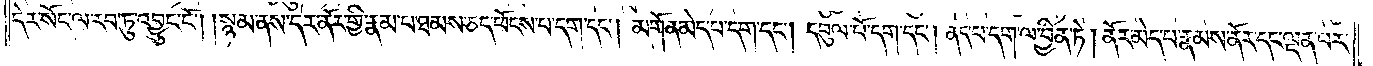དེར་སོང་ལ་རབ་ཏུ་འབྱུང་ངོ༌། །སྙམ་ནས་དེར་ནོར་གྱི་རྣམ་པ་ཐམས་ཅད་ཕོངས་པ་དག་དང༌། མགོན་མེད་པ་དག་དང༌། དབུལ་པོ་དག་དང༌། ནད་པ་དག་ལ་བྱིན་ཏེ། ནོར་མེད་པ་རྣམས་ནོར་དང་ལྡན་པར་
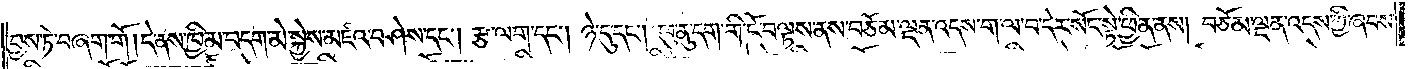བྱས་ཏེ་བཞག་གོ །དེ་ནས་ཁྱིམ་བདག་མེ་སྐྱེས་མཛའ་བཤེས་དང༌། རྩ་ལག་དང༌། ཉེ་དུ་དང༌། ཕུ་ནུ་དག་གི་ངོ་བལྟས་ནས་བཅོམ་ལྡན་འདས་ག་ལ་བ་དེར་སོང་སྟེ་ཕྱིན་ནས། བཅོམ་ལྡན་འདས་ཀྱི་ཞབས་
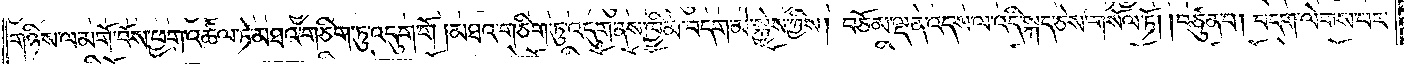གཉིས་ལ་མགོ་བོས་ཕྱག་འཚལ་ཏེ་མཐའ་གཅིག་ཏུ་འདུག་གོ །མཐའ་གཅིག་ཏུ་འདུག་ནས་ཁྱིམ་བདག་མེ་སྐྱེས་ཀྱིས། བཅོམ་ལྡན་འདས་ལ་འདི་སྐད་ཅེས་གསོལ་ཏོ། །བཙུན་པ། བདག་ལེགས་པར་
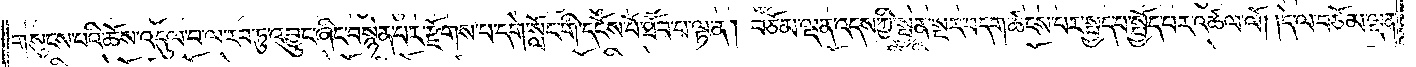གསུངས་པའི་ཆོས་འདུལ་བ་ལ་རབ་ཏུ་འབྱུང་ཞིང་བསྙེན་པར་རྫོགས་པ་དགེ་སློང་གི་དངོས་པོ་ཐོབ་པ་ལྟ་ན། བཅོམ་ལྡན་འདས་ཀྱི་སྤྱན་སྔར་བདག་ཚངས་པར་སྤྱད་པ་སྤྱོད་པར་འཚལ་ལོ། །དེ་ལ་བཅོམ་ལྡན་
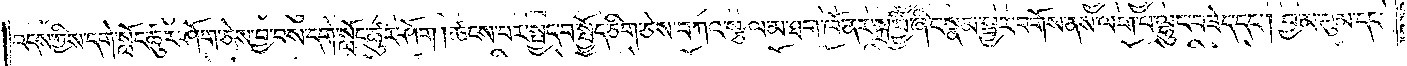འདས་ཀྱིས་དགེ་སློང་ཚུར་ཤོག་ཅེས་བྱ་བས་དགེ་སློང་ཚུར་ཤོག །ཚངས་པར་སྤྱད་པ་སྤྱོད་ཅིག་ཅེས་བཀའ་སྩལ་མ་ཐག་ཁོ་ནར་སྐྲ་བྱི་ཞིང་སྣམ་སྦྱར་བགོས་ནས་ལག་པ་ལྷུང་བཟེད་དང༌། བྱ་མ་བུམ་དང་
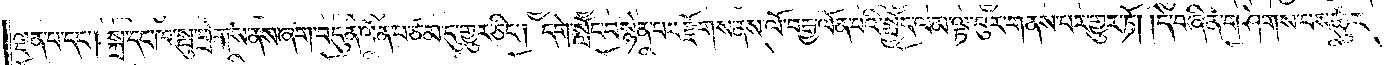ལྡན་པ་དང༌། སྐྲ་དང་ཁ་སྤུ་བྲེགས་ནས་ཞག་བདུན་ལོན་པ་ཙམ་དུ་གྱུར་ཅིང༌། དགེ་སློང་བསྙེན་པར་རྫོགས་ནས་ལོ་བརྒྱ་ལོན་པའི་སྤྱོད་ལམ་ལྟ་བུར་གནས་པར་གྱུར་ཏོ། །དེ་བཞིན་གཤེགས་པས་ཚུར་
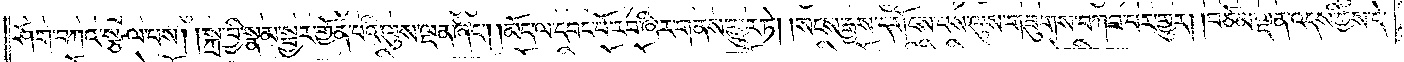ཤོག་བཀའ་སྩལ་པས། །སྐྲ་བྱི་སྣམ་སྦྱར་གྱོན་པའི་ལུས་ལྡན་ཞིང༌། །མོད་ལ་དབང་པོ་རབ་ཞིར་གནས་གྱུར་ཏེ། སངས་རྒྱས་དགོངས་པས་ལུས་གཟུགས་བཀའ་པར་གྱུར། །བཅོམ་ལྡན་འདས་ཀྱིས་དེ་
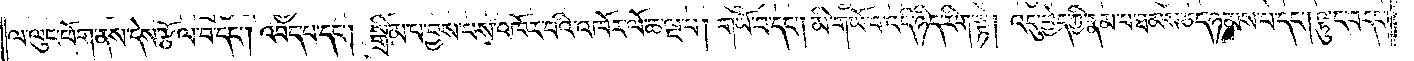ལ་ལུང་ཕོག་ནས་དེས་རྩོལ་བ་དང༌། འབད་པ་དང༌། སྒྲིམ་པ་བྱས་པས་འཁོར་བའི་འཁོར་ལོ་ཆ་ལྔ་པ། གཡོ་བ་དང༌། མི་གཡོ་བ་འདི་ཉིད་རིག་སྟེ། འདུ་བྱེད་ཀྱི་རྣམ་པ་ཐམས་ཅད་ཉམས་པ་དང༌། ལྟུང་བ་དང༌།
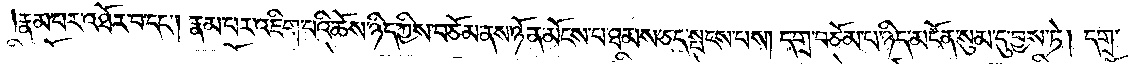རྣམ་པར་འཐོར་བ་དང༌། རྣམ་པར་འཇིག་པའི་ཆོས་ཉིད་ཀྱིས་བཅོམ་ནས་ཉོན་མོངས་པ་ཐམས་ཅད་སྤངས་པས། དགྲ་བཅོམ་པ་ཉིད་མངོན་སུམ་དུ་བྱས་ཏེ། དགྲ་
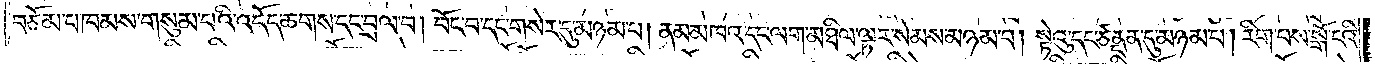བཅོམ་པ་ཁམས་གསུམ་པའི་འདོད་ཆགས་དང་བྲལ་བ། བོང་བ་དང་གསེར་དུ་མཉམ་པ། ནམ་མཁའ་དང་ལག་མཐིལ་ལྟར་སེམས་མཉམ་པ། སྟེའུ་དང་ཙནྡན་དུ་མཉམ་པ། རིག་པས་སྒོ་ངའི་
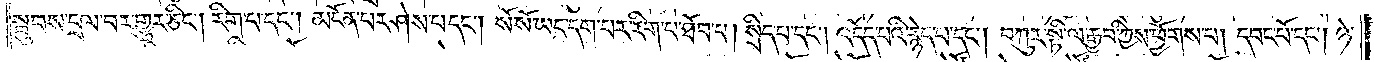སྦུབས་དྲལ་བར་གྱུར་ཅིང༌། རིག་པ་དང༌། མངོན་པར་ཤེས་པ་དང༌། སོ་སོ་ཡང་དག་པར་རིག་པ་ཐོབ་པ། སྲིད་པ་དང༌། འདོད་པའི་རྙེད་པ་དང༌། བཀུར་སྟི་ལ་རྒྱབ་ཀྱིས་ཕྱོགས་པ། དབང་པོ་དང༌། ཉེ་
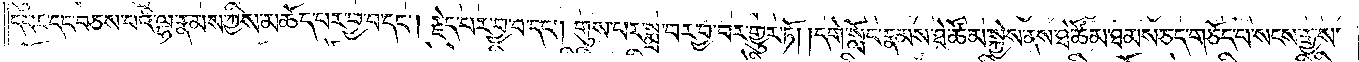དབང་དང་བཅས་པའི་ལྷ་རྣམས་ཀྱིས་མཆོད་པར་བྱ་བ་དང༌། རྗེད་པར་བྱ་བ་དང༌། གུས་པར་སྨྲ་བར་བྱ་བར་གྱུར་ཏོ། །དགེ་སློང་རྣམས་ཐེ་ཚོམ་སྐྱེས་ནས་ཐེ་ཚོམ་ཐམས་ཅད་གཅོད་པ་སངས་རྒྱས་
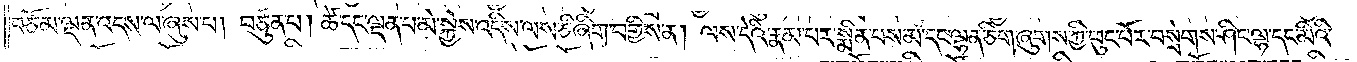བཅོམ་ལྡན་འདས་ལ་ཞུས་པ། བཙུན་པ། ཚེ་དང་ལྡན་པ་མེ་སྐྱེས་འདིས་ལས་ཅི་ཞིག་བགྱིས་ན། ལས་དེའི་རྣམ་པར་སྨིན་པས་མ་དང་ལྷན་ཅིག་ཞུགས་ཀྱི་ཕུང་པོར་བསྲེགས་ཤིང་ལྷ་དང་མིའི་
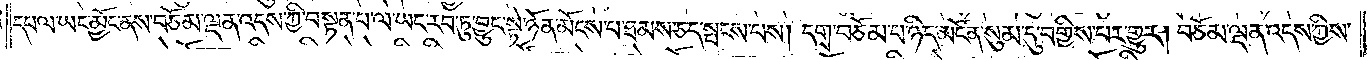དཔལ་ཡང་མྱོང་ནས་བཅོམ་ལྡན་འདས་ཀྱི་བསྟན་པ་ལ་ཡང་རབ་ཏུ་བྱུང་སྟེ་ཉོན་མོངས་པ་ཐམས་ཅད་སྤངས་པས། དགྲ་བཅོམ་པ་ཉིད་མངོན་སུམ་དུ་བགྱིས་པར་གྱུར། བཅོམ་ལྡན་འདས་ཀྱིས་
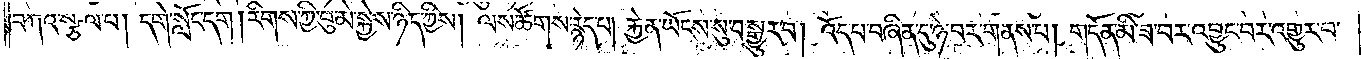བཀའ་སྩལ་པ། དགེ་སློང་དག །རིགས་ཀྱི་བུ་མེ་སྐྱེས་ཉིད་ཀྱིས། ལས་ཚོགས་རྙེད་པ། རྐྱེན་ཡོངས་སུ་བསྒྱུར་བ། འོད་པ་བཞིན་དུ་ཉེ་བར་གནས་པ། གདོན་མི་ཟ་བར་འབྱུང་བར་འགྱུར་བ་
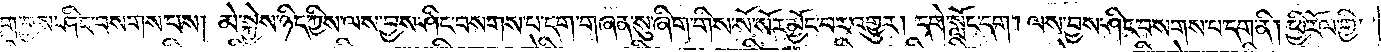དག་བྱས་ཤིང་བསགས་པས། མེ་སྐྱེས་ཉིད་ཀྱིས་ལས་བྱས་ཤིང་བསགས་པ་དག་གཞན་སུ་ཞིག་གིས་སོ་སོར་མྱོང་བར་འགྱུར། དགེ་སློང་དག །ལས་བྱས་ཤིང་བསགས་པ་དག་ནི། ཕྱི་རོལ་གྱི་
